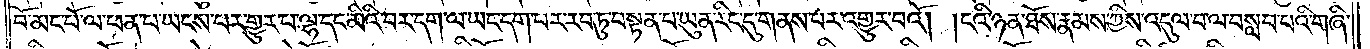བོ་མང་པོ་ལ་ཕན་པ་ཡངས་པར་གྱུར་པ་ལྷ་དང་མིའི་བར་དག་ལ་ཡང་དག་པར་རབ་ཏུ་བསྟན་པ་ཡུན་རིང་དུ་གནས་པར་འགྱུར་བའོ། །ངའི་ཉན་ཐོས་རྣམས་ཀྱིས་འདུལ་བ་ལ་བསླབ་པའི་གཞི་
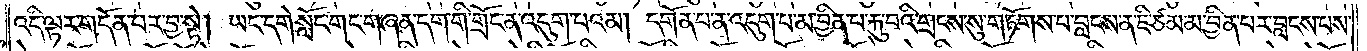འདི་ལྟར་གདོན་པར་བྱ་སྟེ། ཡང་དགེ་སློང་གང་གཞན་དག་གི་གྲོང་ན་འདུག་པའམ། དགོན་པ་ན་འདུག་པ་མ་བྱིན་པ་རྐུ་བའི་གྲངས་སུ་གཏོགས་པ་བླངས་ན་ཇི་ཙམ་མ་བྱིན་པར་བླངས་པས་
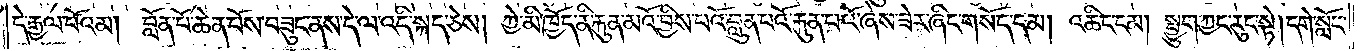དེ་རྒྱལ་པོའམ། བློན་པོ་ཆེན་པོས་བཟུང་ནས་དེ་ལ་འདི་སྐད་ཅེས། ཀྱེ་མི་ཁྱོད་ནི་རྐུན་མའོ་བྱིས་པའི་བླུན་པའོ་རྐུན་པའོ་ཞེས་ཟེར་ཞིང་གསོད་དམ། འཆིང་ངམ། སྤྱུག་ཀྱང་རུང་སྟེ། དགེ་སློང་
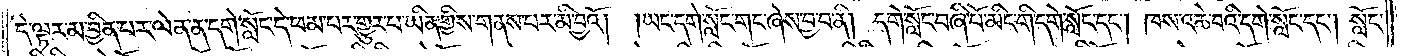དེ་ལྟར་མ་བྱིན་པར་ལེན་ན་དགེ་སློང་དེ་ཕམ་པར་གྱུར་པ་ཡིན་གྱིས་གནས་པར་མི་བྱའོ། །ཡང་དགེ་སློང་གང་ཞེས་བྱ་བ་ནི། དགེ་སློང་བཞི་པོ་མིང་གི་དགེ་སློང་དང༌། ཁས་འཆེ་བའི་དགེ་སློང་དང༌། སློང་
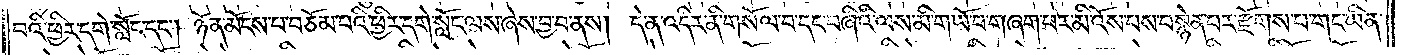བའི་ཕྱིར་དགེ་སློང་དང༌། ཉོན་མོངས་པ་བཅོམ་པའི་ཕྱིར་དགེ་སློང་ལས་ཞེས་བྱ་བ་ནས། དེ་ན་འདིར་ནི་གསོལ་བ་དང་བཞིའི་ལས་མི་གཡོ་བ་གཞག་པར་མི་འོས་པས་བསྙེན་པར་རྫོགས་པ་གང་ཡིན་
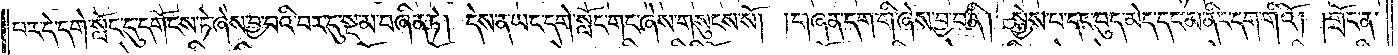པར་དེ་དགེ་སློང་དུ་དགོངས་ཏེ་ཞེས་བྱ་བའི་བར་དུ་སྔ་མ་བཞིན་ཏེ། དེས་ན་ཡང་དགེ་སློང་གང་ཞེས་གསུངས་སོ། །གཞན་དག་གི་ཞེས་བྱ་བ་ནི། སྐྱེས་པ་དང་བུད་མེད་དང་མ་ནིང་དག་གིའོ། །གྲོང་ན་
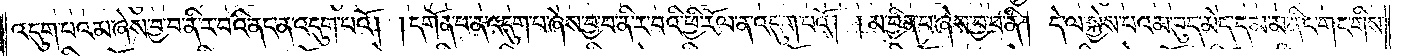འདུག་པའམ་ཞེས་བྱ་བ་ནི་ར་བའི་ནང་ན་འདུག་པའོ། །དགོན་པ་ན་འདུག་པ་ཞེས་བྱ་བ་ནི་ར་བའི་ཕྱི་རོལ་ན་འདུག་པའོ། །མ་བྱིན་པ་ཞེས་བྱ་བ་ནི། དེ་ལ་སྐྱེས་པའམ་བུད་མེད་དམ་མ་ནིང་གང་གིས་
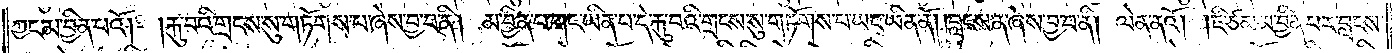ཀྱང་མ་བྱིན་པའོ། །རྐུ་བའི་གྲངས་སུ་གཏོགས་པ་ཞེས་བྱ་བ་ནི། མ་བྱིན་པ་གང་ཡིན་པ་དེ་རྐུ་བའི་གྲངས་སུ་གཏོགས་པ་ཡང་ཡིན་ནོ། །བླངས་ན་ཞེས་བྱ་བ་ནི། ལེན་ནའོ། །ཇི་ཙམ་མ་བྱིན་པར་བླངས་
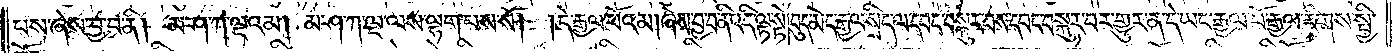པས་ཞེས་བྱ་བ་ནི། མ་ཤ་ཀ་ལྔའམ། མ་ཤ་ཀ་ལྔ་ལས་ལྷག་པས་སོ། །དེ་རྒྱལ་པོའམ། ཞེས་བྱ་བ་ནི་འདི་ལྟ་སྟེ། བུད་མེད་རྒྱལ་སྲིད་ལ་དབང་བསྐུར་བས་དབང་བསྐུར་བར་གྱུར་ན་དེ་ཡང་རྒྱལ་པོ་རྒྱལ་རིགས་སྤྱི་
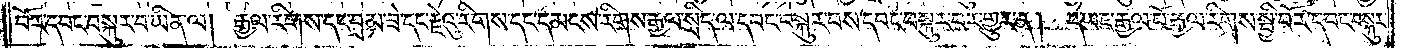བོར་དབང་བསྐུར་བ་ཡིན་ལ། རྒྱལ་རིགས་དང་བྲམ་ཟེ་དང་རྗེའུ་རིགས་དང་དམངས་རིགས་རྒྱལ་སྲིད་ལ་དབང་བསྐུར་བས་དབང་བསྐུར་བར་གྱུར་ན། དེ་ཡང་རྒྱལ་པོ་རྒྱལ་རིགས་སྤྱི་བོར་དབང་བསྐུར་
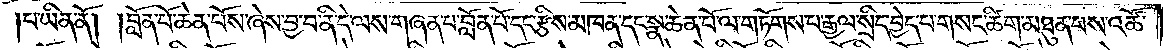པ་ཡིན་ནོ། །བློན་པོ་ཆེན་པོས་ཞེས་བྱ་བ་ནི་དེ་ལས་གཞན་པ་བློན་པོ་དང་རྩིས་མཁན་དང་སྣ་ཆེན་པོ་ལ་གཏོགས་པ་རྒྱལ་སྲིད་བྱེད་པ་གསང་ཚིག་མཐུན་པས་འཚོ་
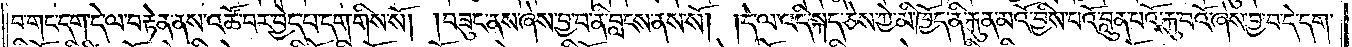བ་གང་དག་དེ་ལ་བརྟེན་ནས་འཚོ་བར་བྱེད་པ་དག་གིས་སོ། །བཟུང་ནས་ཞེས་བྱ་བ་ནི་བླངས་ནས་སོ། །དེ་ལ་འདི་སྐད་ཅེས་ཀྱེ་མི་ཁྱོད་ནི་རྐུན་མའོ་བྱིས་པའོ་བླུན་པའོ་རྐུ་བའོ་ཞེས་བྱ་བ་དེ་དག་
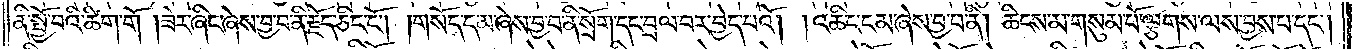ནི་སྤྱོ་བའི་ཚིག་གོ །ཟེར་ཞིང་ཞེས་བྱ་བ་ནི་རྗོད་ཅིང་ངོ༌། །གསོད་དམ་ཞེས་བྱ་བ་ནི་སྲོག་དང་བྲལ་བར་བྱེད་པའོ། །འཆིང་ངམ་ཞེས་བྱ་བ་ནི། ཆིངས་མ་གསུམ་པོ་ལྕགས་ལས་བྱས་པ་དང༌།
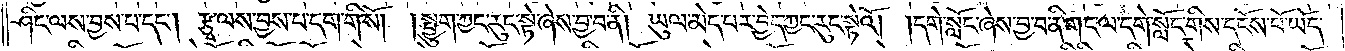ཤིང་ལས་བྱས་པ་དང༌། རྩྭ་ལས་བྱས་པ་དག་གི་སོ། །སྤྱུག་ཀྱང་རུང་སྟེ་ཞེས་བྱ་བ་ནི། ཡུལ་མེད་པར་བྱེད་ཀྱང་རུང་སྟེའོ། །དགེ་སློང་ཞེས་བྱ་བ་ནི་གང་ལ་དགེ་སློང་གིས་དངོས་པོ་ཡོད་
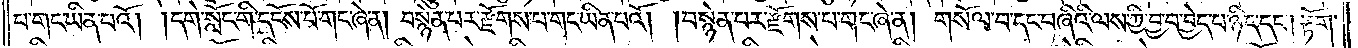པ་གང་ཡིན་པའོ། །དགེ་སློང་གི་དངོས་པོ་གང་ཞེ་ན། བསྙེན་པར་རྫོགས་པ་གང་ཡིན་པའོ། །བསྙེན་པར་རྫོགས་པ་གང་ཞེ་ན། གསོལ་བ་དང་བཞིའི་ལས་ཀྱི་བྱ་བ་བྱེད་པ་ཉིད་དང༌། རྟོག་
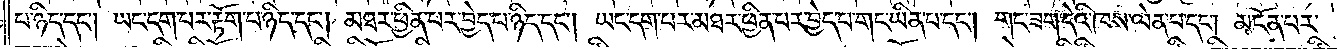པ་ཉིད་དང༌། ཡང་དག་པར་རྟོག་པ་ཉིད་དང༌། མཐར་ཕྱིན་པར་བྱེད་པ་ཉིད་དང༌། ཡང་དག་པར་མཐར་ཕྱིན་པར་བྱེད་པ་གང་ཡིན་པ་དང༌། གང་ཟག་དེའི་ཁས་ལེན་པ་དང༌། མངོན་པར་
